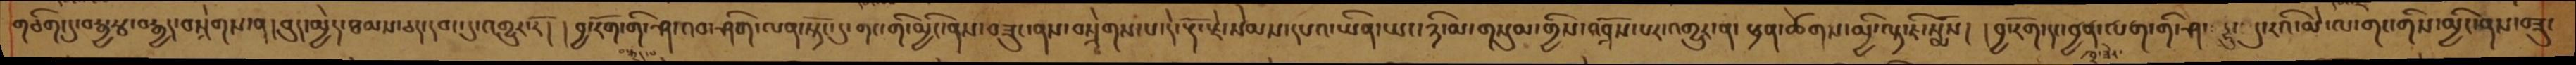གཅིག་དུ་བརྒྱ་རྩ་བརྒྱད་བསྲེགས་ན། བུད་མྱེད་ཐམས་ཅད་དབང་དུ་འགྱུར་རོ། །བྱ་རོག་གི་ཤ་འབ་ཤིག་ལན་སྟོང་དུ་གང་གི་མྱིང་ནས་བཟུང་ནས་བསྲེགས་པ་དེ་རྡོ་རྗེ་སེམས་དཔའ་ཡིན་ཡང་ཉི་མ་གསུམ་གྱིས་འབྲོས་པར་འགྱུར་ན་ ཕྲན་ཚོགས་མྱི་ལྟ་ཇི་སྨོས། །བྱ་རོག་དང་བྱན་ལག་གི་ཤ་དྷུ་དུ་རའི་མེ་ལ་གང་གིས་མྱིང་ནས་བཟུང
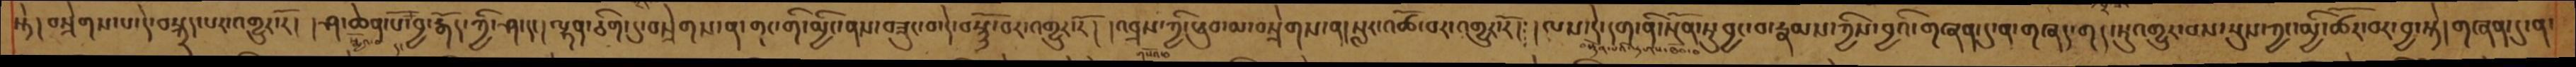སྟེ། བསྲེགས་པ་དེ་བསྐྲད་པར་འགྱུར་རོ། །ཤ་ཆེན་པོ་བྱ་རྒོད་ཀྱི་ཤ་དང། ལྷན་ཅིག་དུ་བསྲེགས་ན་གང་གི་མྱིང་ནས་བཟུང་བ་དེ་བསྙོ་བར་འགྱུར་རོ། །འབྲས་ཀྱི།ཕུབ་མ་བསྲེགས་ན། སླར་འཚོ་བར་འགྱུར་རོ། །ལས་དེ་དག་ནི་སྔོན་ཏུ་བྱང་བ་རྣམས་ཀྱིས་བྱའི་གཞན་དུ་ན་གཞད་གད་ཏུ་འགྱུར་བས་སུས་ཀྱང་མྱི་ཚོར་བར་བྱ་སྟེ། གཞན་དུ་ན་
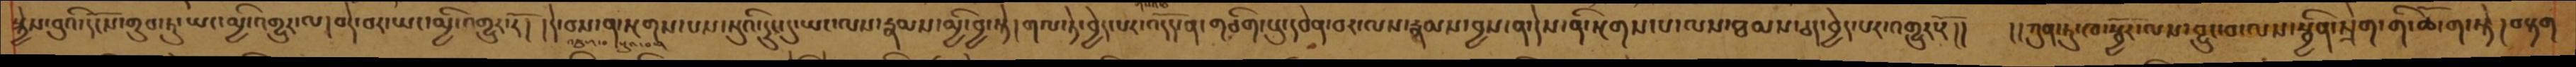སྐྱེས་བུའི་དངོས་གྲུབ་ཏུ་ཡང་མྱི་འགྱུར་ལ།བདེ་བར་ཡང་མྱི་འགྱུར་རོ། །དེ་བས་ན་སྔགས་པས་སུའི་དྲུང་དུ་ཡང་ལས་རྣམས་མྱི་བྱ་སྟེ། གལ་ཏེ་བྱེད་པར་འདོད་ན་གཅིག་པུ་དབེན་བར་ལས་རྣམས་བྱས་ན་དེས་ནི་སྔགས་པ་ལས་ཐམས་ཅད་བྱེད་པར་འགྱུར་རོ།།  །།ཀུན་ཏུ་ཁ་སྦྱོར་ལས་བྱུང་བ་ལས་སྦྱིན་སྲེག་གི་ཆོ་ག་སྟེ། བརྟག
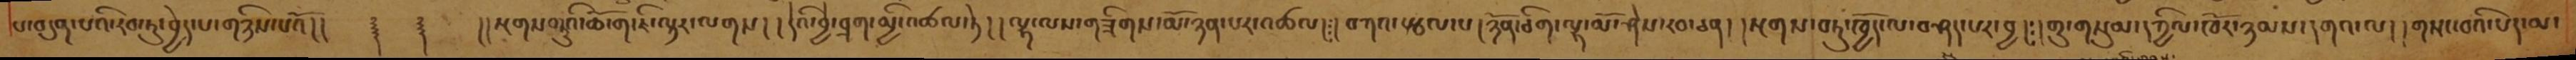པ་བདུན་པའི་རབ་ཏུ་བྱེད་པ་གཉིས་པའོ།།  ༈  ༈  །།སྔགས་བཏུའི་ཆོ་ག་ཇི་ལྟར་ལགས། །དེའི་བྱེ་བྲག་མྱི་འཚལ་ཏེ། །ལྷ་ལས་གཟིགས་མོ་ཉན་པར་འཚལ། །བཀའ་རྩལ་པ། ཉོན་ཅིག་ལྷ་མོ་ཤེས་རབ་ཅན། །སྔགས་བཏུ་ཁྱོད་ལ་བཤད་པར་བྱ། །གྲུ་གསུམ་དཀྱིལ་ཁོར་ཉམས་དགའ་ལ། །གསང་བའི་པད་མ་
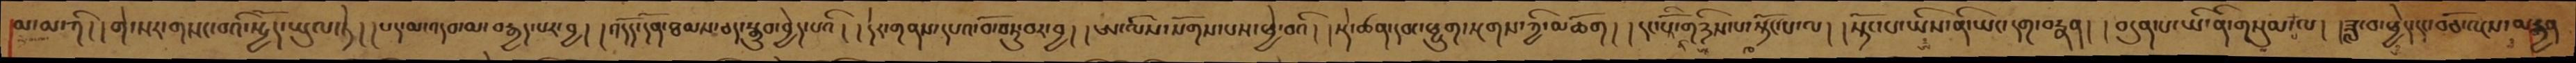མ་མ་ཀི། །གེ་སར་གསང་བའི་སྤྱོད་ཡུལ་ཏེ། །པད་མ་འདབ་མ་བརྒྱད་པར་བྱ། །འདོད་དོན་ཐམས་ཅད་སྒྲུབ་བྱེད་པའི། །དེར་གནས་དཔའ་བོ་བཏུ་བར་བྱ། །ཨ་ལིས་སོགས་པས་ཕྱེ་བའི། །སྡེ་ཚན་དབང་ཕྱུག་སྔགས་ཀྱི་མཆོག། །དང་པོའི་གཉིས་པ་སྟོང་པ་ལ། །སྟོང་པ་ཡིས་ནི་ཡང་དག་བརྣན། །བདུན་པ་ཡི་ནི་གསུམ་པ་ལ། །ཟླ་བ་ཕྱེད་དང་བཅོ་ལྔས་བརྒྱན
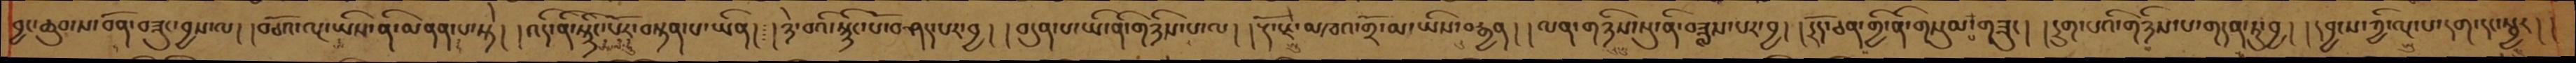བྱང་ཆུབ་ས་བོན་བཟུང་བྱས་ལ། །བཅོའ་ལྔ་ཡིས་ནི་མནན་པ་སྟེ། །འདི་ནི་སྙིང་པོར་བསྟན་པ་ཡིན། །ཉེ་བའི་སྙིང་པོ་བཤདཔར་བྱ། །བདུན་པ་ཡི་ནི་གཉིས་པ་ལ། །རྡོ་རྗེ་མཁའ་གྲོ་མ་ཡིས་བརྒྱན། །ལན་གཉིས་སུ་ནི་བཟླས་པར་བྱ། །དྲོད་ཅན་གྱི་ནི་གསུམ་པ་གཟུང། །དྲུག་པའི་གཉིས་པ་གདན་ཏུ་བྱ། །དབྱངས་ཀྱི་ལྔ་པ་དག་དང་སྦྱར། །
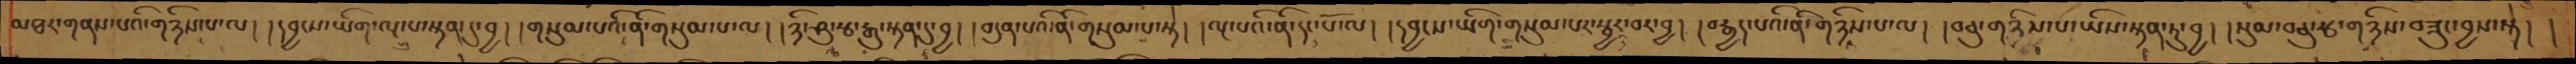མཐར་གནས་པའི་གཉིས་པ་ལ། །དབྱངས་ཡིག་ལྔ་པ་སྟན་དུ་བྱ། །གསུམ་པའི་ནི་གསུམ་པ་ལ། །ཉི་ཤུ་རྩ་རྒུ་སྟན་དུ་བྱ། །བདུན་པའི་ནི་གསུམ་པ་སྟེ། །ལྔ་པའི་ནི་དང་པོ་ལ། །དབྱངས་ཡིག་གསུམ་པར་སྦྱར་བར་བྱ། །བརྒྱད་པའི་ནི་གཉིས་པ་ལ། །བཅུ་གཉིས་པ་ཡིས་སྟན་ཏུ་བྱ། །སུམ་བཅུ་རྩ་གཉིས་བཟུང་བྱས་སྟེ། །
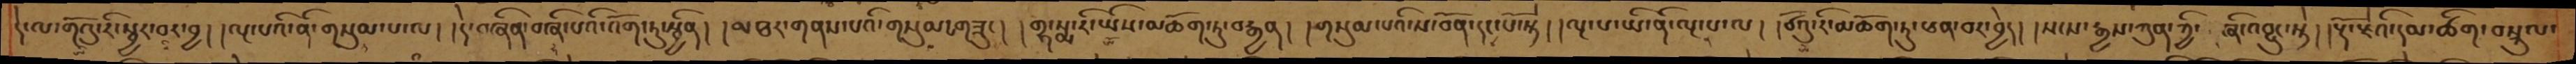དེ་ལ་གོའུ་རི་སྦྱར་བར་བྱ། །ལྔ་པའི་ནི་གསུམ་པ་ལ། །དེ་བཞིན་བཞི་པའི་འོག་ཏུ་སྦྱིན། །མཐར་གནས་པའི་གསུམ་པ་གཟུང། །གྷ་སྨ་རི་ཡིས་མཆོག་ཏུ་བརྒྱན། །གསུམ་པའི་ས་བོན་དང་པོ་སྟེ། །ལྔ་པ་ཡི་ནི་ལྔ་པ་ལ། །ཙོའུ་རི་མཆོག་ཏུ་ཕན་བར་བྱེད། །སངས་རྒྱས་ཀུན་གྱི་ཞི་འབྱུང་སྟེ། །རྡོ་རྗེའི་དམ་ཚིག་བསྐུལ་
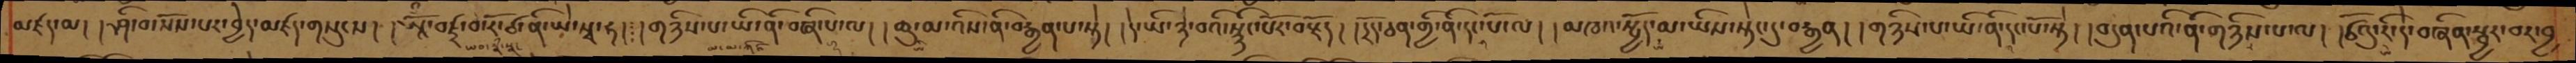མཛད་མ། །ཤི་བ་སོས་པར་བྱེད་མཛད་གསུངས། །ཨཱོྃ་བཛྲ་བ་རོ་ཙ་ནི་ཡེ་སྭ་ཧ། །གཉིས་པ་ཡི་ནི་བཞི་པ་ལ། །ཆུ་མ་འིས་ནི་བརྒྱན་པ་སྟེ། །དེ་ཡི་ཉེ་བའི་སྙིང་པོར་བརྗོད། །དྲོད་ཅན་གྱི་ནི་དང་པོ་ལ། །མཁའ་སྤྱོད་མ་ཡིས་སྟེང་དུ་བརྒྱན། །གཉིས་པ་ཡི་ནི་དང་པོ་སྟེ། །བདུན་པའི་ནི་གཉིས་པ་ལ། །ཙོའུ་རི་དེ་བཞིན་སྦྱར་བར་བྱ
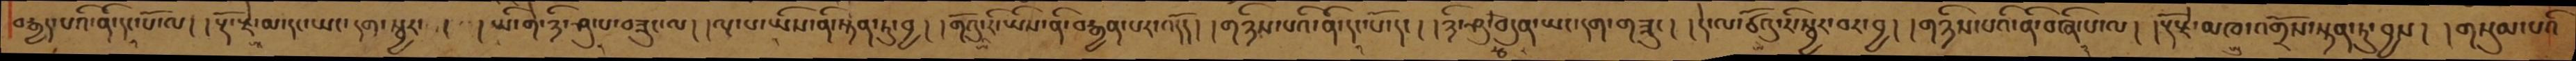བརྒྱད་པའི་ནི་དང་པོ་ལ། །རྡོ་རྗེ་མ་དང་ཡང་དག་སྦྱར་། །ཡི་གེ་ཉི་ཤུ་པ་བཟུང་ལ། །ལྔ་པ་ཡིས་ནི་སྟེན་ཏུ་བྱ། །གོའུ་རི་ཡིས་ནི་བརྒྱན་པར་འདོད། །གཉིས་པའི་ནི་དང་པོ་དང། །ཉི་ཤུ་རྩ་བདུན་ཡང་དག་གཟུང། །དེ་ལ་ཙོའུ་རི་སྦྱར་བར་བྱ། །གཉིས་པའི་ནི་བཞི་པ་ལ། །རྡོ་རྗེ་མཁ་འགྲོས་སྟན་ཏུ་བྱས། །གསུམ་པའི
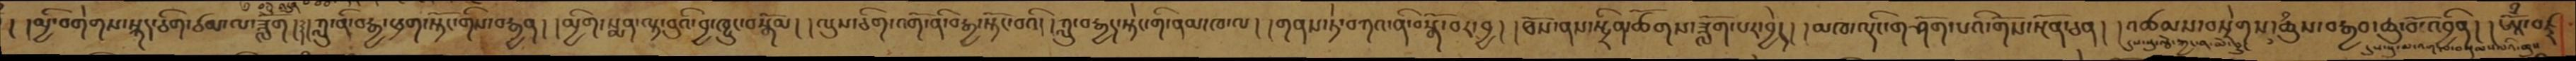། །མྱི་བགེགས་སྐད་ཅིག་ཙམ་ལ་ཟློག། ༈ །ཀླུ་ནི་བརྒྱ་ཕྲག་སྟོང་གིས་བརྒྱན། །མྱིག་སྨན་ལྟ་བུའི་བྱ་ཁྱུང་བསྒོམ། །ལུས་ཅིག་འགོ་ནི་བརྒྱ་སྟོང་བའི། །ཀླུ་བརྒྱད་སྟེང་གི་ནམ་ཁ་ལ། །གནས་ཏེ་བཀའ་ནི་བསྒོ་བར་བྱ། །ཐོས་ནས་སྤྲིན་ཚོགས་ཟློག་པར་བྱེད། །མཁ་ལྡིང་གཤོག་པའི་གོས་སྔོན་ཅན། །འཚམས་བསྲེགས་ཆུས་བརྒྱབ་ཆུ་བོ་འབྱིན། །ཨཱོྃ་བཛྲ
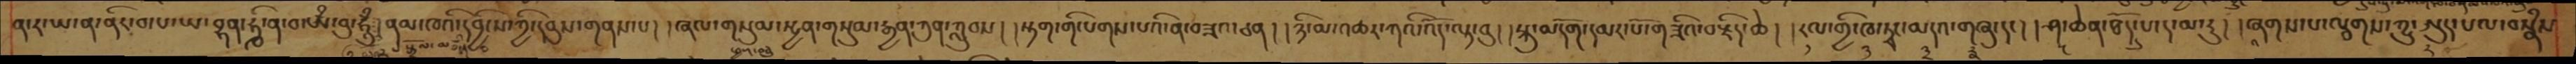ན་ར་ཡ་ན་ནིར་བ་པ་ཡ་བྷན་དྷི་ན་བ་ཨྃ་བུ་ཧཱུྃ། ནམ་ཁའི་དབྱིངས་ཀྱི་དབུས་གནས་པ། །ཞལ་གསུམ་སྤྱན་གསུམ་རྒྱན་ཀུན་ཀླུབས། །སྟག་གི་པགས་པའི་ན་བཟའ་ཅན། །ཉི་མ་འཆར་ཀའི་འོད་ལྟ་བུ། །སྐུ་མདོག་དམར་པོ་གཟིའ་བརྗིད་ཆེ། །རལ་གྱི་ཁ་ཏྭང་མདའ་གཞུ་དང། །ཤ་ཆེན་ཐོད་པ་ད་མ་རུ། །ཞགས་པ་ལྕགས་ཀྱུ་ཨུད་པལ་བསྣཾས
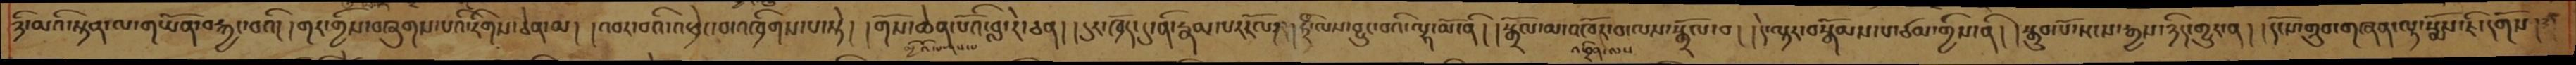ཉི་མའི་སྟན་ལ་གཡོན་བརྐྱང་བའི། །གར་གྱིས་བཞུགས་པའི་རིགས་ཅན་མ། །འབར་བའི་འཕྲེང་བ་འཁྲིགས་པ་སྟེ། །གོས་ཆེན་པོའི་བླ་རེ་ཅན། །དུར་ཁྲོད་དུ་ནི་རྣམ་པར་རོལ།༈ །ཧྲི་ལས་བྱུང་བའི་ལྷ་མོ་ནི། །སྒྲོལ་མ་འཁོར་བ་ལས་སྒྲོལ་བ། །དེ་ལྟར་བསྒོམས་པ་ཙམ་གྱིས་ནི། །སྒྲུབ་པོ་སངས་རྒྱས་ཉིད་གྱུར་ན། །དངོས་གྲུབ་གཞན་ལྟ་སྨོས་ཇི་དགོས།
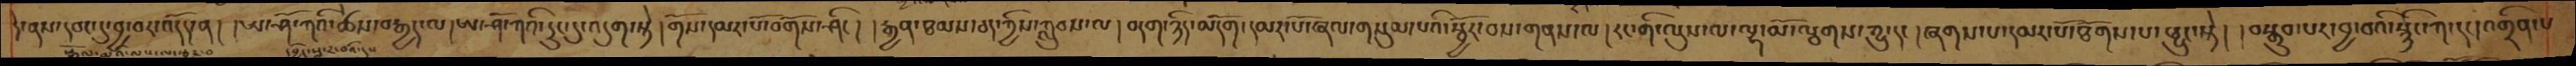དེ་ནས་དབང་དུ་བྱ་བར་འདོད་ན། །ཨ་ཤོ་ཀའི་ཚེས་བརྒྱས་ལ། ཨ་ཤོ་ཀའི་དྲུང་དུ་འདུག་སྟེ། གོས་དམར་པོ་བགོས་ཤིང། །རྒྱན་ཐམས་ཅད་ཀྱིས་ཀླུབས་ལ། བདག་ཉིད་མདོག་དམར་པོ་ཞལ་གསུམ་པའི་སྦྱོར་བས་གནས་ལ། རང་གི་ལུས་ལ་ལྷ་མོ་ལྕགས་ཀྱུ་དང། ཞགས་པ་དམར་པོ་ཐོགས་པ་ཕྱུང་སྟེ། །བསྒྲུབ་པར་བྱ་བའི་སྙིང་ཀ་དང། འགྲིན་པ
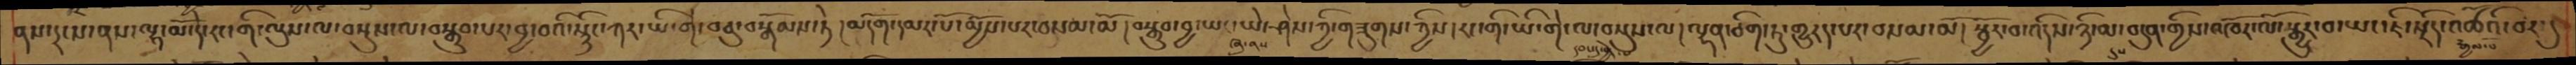ནས་དྲངས་ནས་ལྷ་མོ་དེ་རང་གི་ལུས་ལ་བསྡུས་ལ་བསྒྲུབ་པར་བྱ་བའི་སྙིང་ཀར་ཡི་གེ་བཅུ་བསྒོམས་ཏེ། མདོག་དམར་པོ་མྱོས་པར་བསམ་མོ། བསྒྲུབ་བྱ་ཡང་ཡེ་ཤེས་ཀྱི་གཟུགས་ཀྱིས། རང་གི་ཡི་གེ་ལ་བསྡུས་ལ། ལྷན་ཅིག་ཏུ་གྱུརད་པར་བསམ་མོ། སྦྱོར་བ་འདིས་ཉི་མ་བདུན་གྱིས་འཁོར་ལོ་སྒྱུར་བ་ཡང་ཇི་སྲིད་འཚོའི་བར་དུ
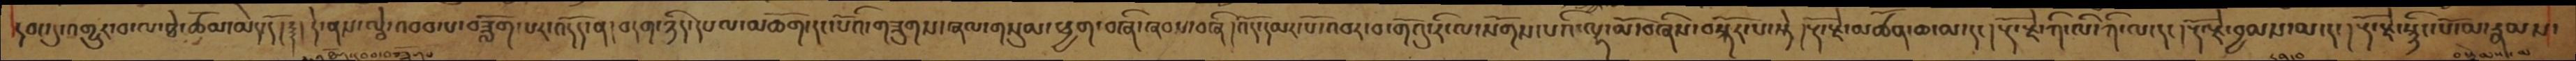དབང་དུ་འགྱུར་བ་ལ་ཐེ་ཚོམ་མེད་དོ། ༈།དེ་ནས་ལྕེ་འབབ་པ་བཟློག་པར་འདོད་ན། བདག་ཉིད་དཔལ་མཆོག་དང་པོའི་གཟུགས་ཞལ་གསུམ་ཕྱག་བཞི་ཞབས་བཞི། འོད་དམར་པོ་འབར་བ་གོའུ་རི་ལ་སོགས་པའི་ལྷ་མོ་བཞིས་བསྐོར་པ་སྟེ། རྡོ་རྗེ་མཚོན་ཆ་མ་དང། རྡོ་རྗེ་ཀི་ལི་ཀི་ལ་དང། རྡོ་རྗེ་བྱམས་མ་དང། རྡོ་རྗེ་སྙིང་པོ་མ་རྣམས་
